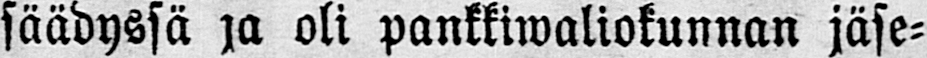säädyssä ja oli pankkiwaliokunnan jäse-
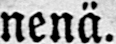nenä.
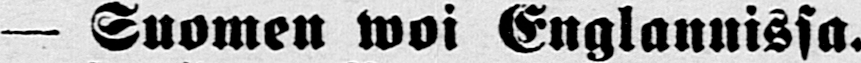— Suomen woi Englannissa.
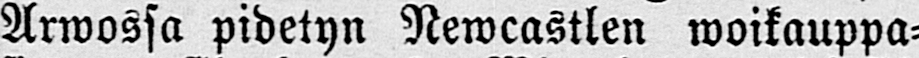Arwossa pidetyn Newcastlen woikauppa-
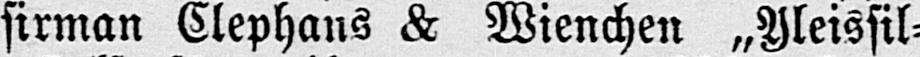sirman Clephans & Wienchen „Yleissil-
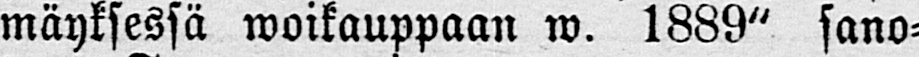mäyksessä woikauppaan w. 1889" sano-
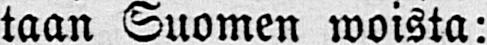taan Suomen woista:
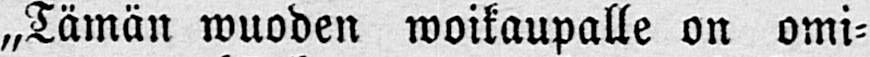„Tämän wuoden woikaupalle on omi-
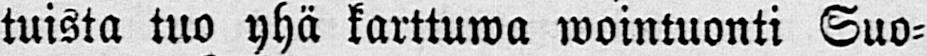tuista tuo yhä karttuwa wointuonti Suo-
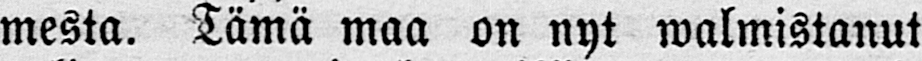mesta. Tämä maa on nyt walmistanut
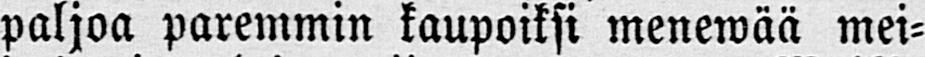paljoa paremmin kaupoiksi menewää mei-
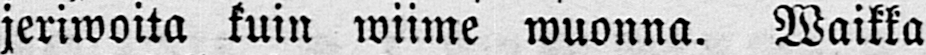jeriwoita kuin wiime wuonna. Maikka
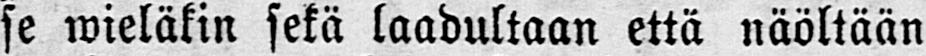se wieläkin sekä laadultaan että näöltään
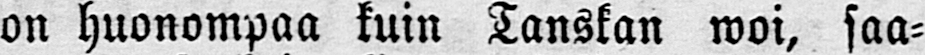on huonompaa kuin Tanskan woi, saa-
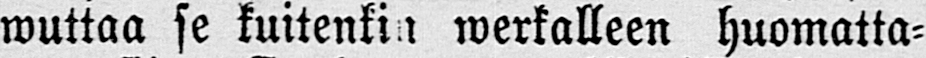wuttaa se kuitenkin werkalleen huomatta-
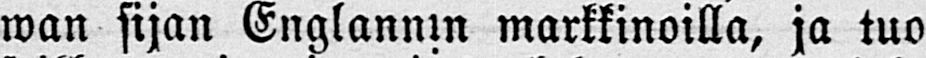wan sijan Englannin markkinoilla, ja tuo
